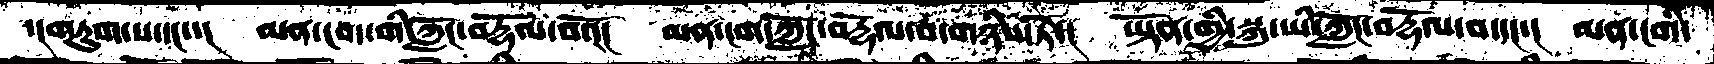་།གཏུག་པ་དང་་།  མན་ངག་གི་ཀློང་བརྡོལ་བའོ།  མན་ངག་ཀློང་བརྡོལ་བ་གཉིས་ཏེ་།  ཡྟོན་གྱི་སྐུ་ཡི་ཀློང་བརྡོལ་བ་དང་།  མན་ངགི་
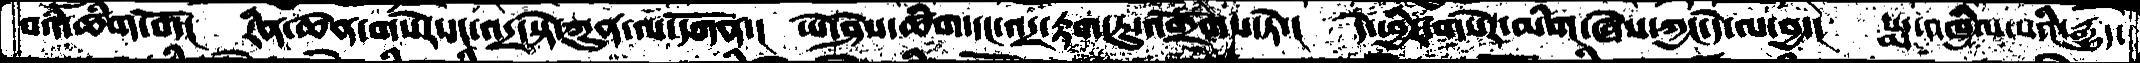བའི་ཚིག་གོ།  རིན་ཆེན་གསེར་དང་འདྲ་སྟེ་ཀུན་ལ་དཀོན་།  ཡེ་ཤེས་ཚིག་དང་འདྲ་རྟག་ཏུ་འགྲོགས་ཏེ་།  དེ་ཕྱིར་གསེར་མིག་ཞེས་ཀྱང་དེ་ལ་བྱ་།  པདྨ་འཁྱིལ་བའི་རྒྱུད་
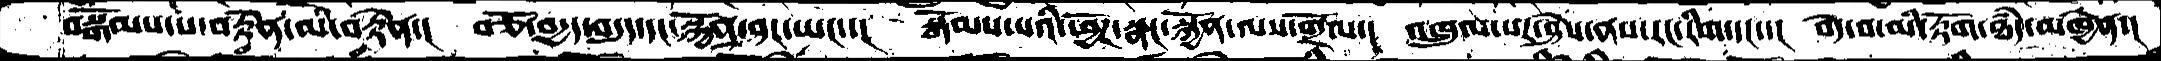བསྒོམས་པ་བརྟེན་མི་བརྟེན་།  བཅོ་བདྱད་བདུད་དང་སྐྱོན་ཤར་ཡང་་།  སྒོམས་པའི་ཕྱོཌ་སྣང་སྐྱོན་ལས་གྲོལ་།  འཁྲུལ་པར་ཤེས་ནས་རང་རིག་དང་་།  བདེ་བ་མི་རྟོག་ཐཾད་མཁྱེན་།
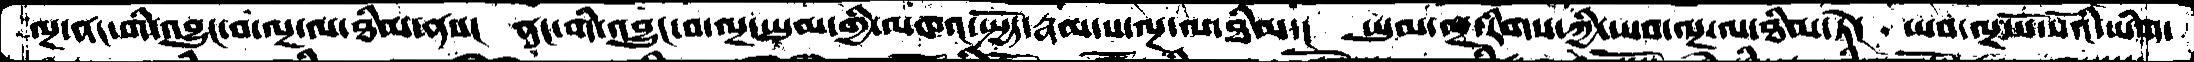ལྔ་ནང་གི་འབྱུང་བ་ལྔ་ལ་ཐིམ་ནས།  ནང་གི་འབྱུང་བ་ལྔ་ཡུམ་གྱི་མཁའ་སྤྱོད་རྣམ་པ་ལྔ་ལ་ཐིམ་།  ཡུམ་ལྔ་རིགས་ཀྱི་ཡབ་ལྔ་ལ་ཐིམ་ཏེ།  ཡབ་ལྔ་སོ་སོའི་ཡིག་
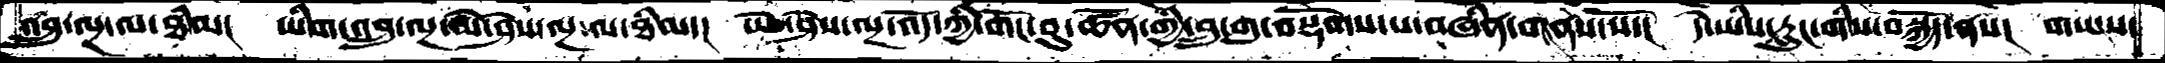འབྲུ་ལྔ་ལ་ཐིམ།  ཡིག་འབྲུ་ལྔ་ཡེ་ཤེས་ལྔ་ལ་ཐིམ་།  ཡེ་ཤེས་ལྔ་འོད་ཀྱི་གོང་བུ་ཚོན་གྱི་བྲུ་གུ་བསྡོགས་པ་བཞིན་གནས་སོ་།  དེ་ཡིས་རླུང་གིས་བསྐྱོད་ནས།  གཡས་
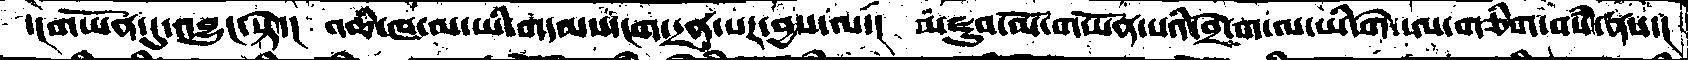་།གཡོན་དུ་འབྱུང་སྟེ་།  འཆི་ཁ་མ་ཡི་གདམས་ངག་དྲན་པར་བྱས་ལ་།  མཛུབ་མོ་གཡོན་པའི་བྲེ་ག་ལ་ཡི་གེ་ཨ་གཅིག་བསཾ་ནས་།
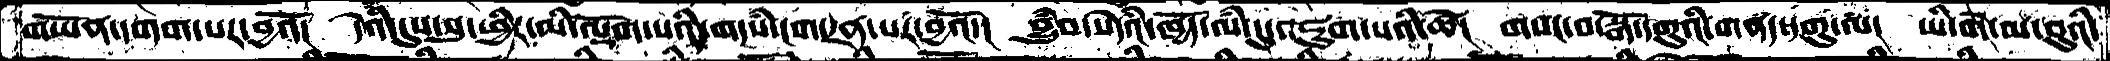གཡོན་དགགས་པར་བྱའོ།  དེའི་དུས་སུ་ཕྱིར་མི་ལྡོག་པའི་གདཾས་ངག་དྲན་པར་བྱའོ་།  བྱུཾབ་སེཾདའ་ཁྱོད་ལཾ་དུ་འཇུག་པའི་ཚེ།  གསང་བ་སྒོ་དགུའི་གནད་དགུ་ལ།  ཡི་གེ་མ་བུའི་
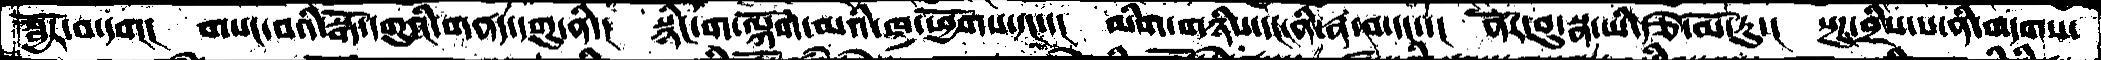སྦྱོར་བ་དག།  གསང་བའི་སྒོ་དགུའི་གནད་དགུ་ནི་།  སྙིང་ག་ལྐོག་མའི་ཁ་ཕྱོགས་དང་་།  མིག་གཉིས་དང་མི་རྣ་བ་དང་་།  ནོར་བུ་སྣ་ཡི་རྩེ་མོ་རུ་།།  སྔཌ་བྲིས་པ་ནི་གདགས་
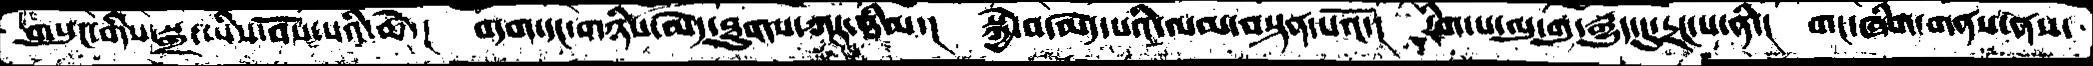གསུང་གིས་སྒྲ་ཡིས་བོས་པའི་ཚོཌ།  བདག་དང་གཉིས་མེད་ཐུགས་ཀར་ཐིམ་།  སྐྱེ་བ་མེད་པའི་ལམ་བསྟན་པའོ་།  རིག་པ་ལུ་གུ་རྒྱུད་དུ་དྲང་པ་ནི་།  གང་ཞིག་གནས་ནས་
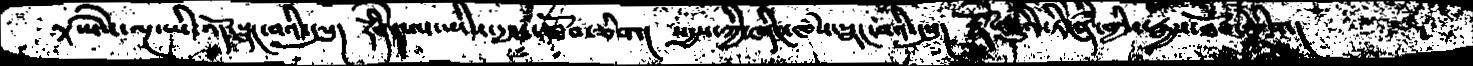ལྟ་ཡཻས་ལྔ་ཡི་འོད་སྣང་བའི་དུསུ། རིནོེ་ཨ་ཡིས་དྱས་ཐོབ་ཅིག།  སདྱས་ཀྱི་ཞིང་ཁཾས་སྣང་བའི་དུསུ།  རྡོཻ་བཅུའི་ཏིངེིན་གྱིས་རྒྱས་ཐོབ་ཅིག།
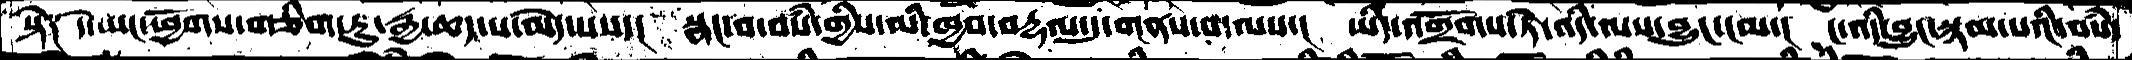སྟེ༑  དེ་ཡང་ཕྱོགས་གཅིག་ཏུ་རྒྱ་ཆད་པ་མེད་པས་།  སྣང་བ་བསཾ་གྱིས་མི་ཁྱབ་བརྡལ་དུ་གནས་བ་ལས་།  ཡིད་འགྲོགས་ཏེ་འདི་ལས་བྱུང་ངམ་།  ང་འདི་བྱུང་སྙམ་པའི་བསཾ་
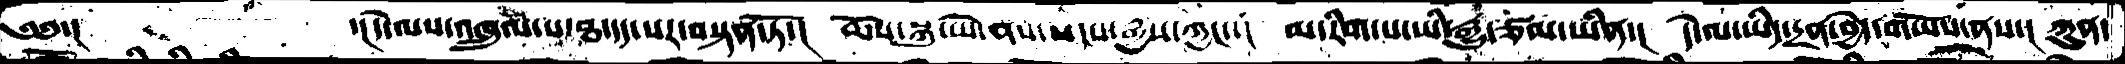༄༅་།           ་།དེ་ལས་འཁྲུལ་པ་ཐ་དད་པར་བསྟན་ཏོ་།  ཆོས་སྐུ་ཡེ་ནས་སངས་རྒྱས་ཀྱང་་།  མ་རིག་པ་ཡི་རྒྱུ་ཙམ་ཡིན་།  དེ་ལ་ཡིད་དྲན་བྱེད་གཡོས་ནས་།  ཀུན་
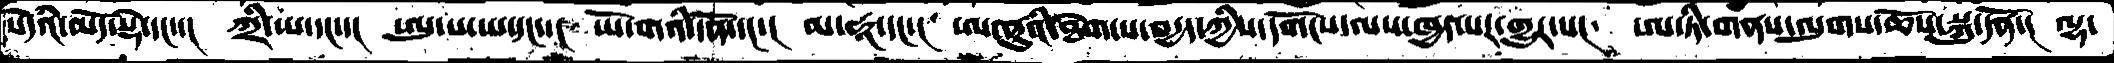སེདཾའ་མདོ་སྡེ་དང་་།  ཀྲི་ཡ་དང་་།  ཨུ་པ་ཡ་དང་་།  ཡོ་གའི་དོན་དང་།  མ་ཧཱ་དང་།  ཨ་ནུའི་ཐེག་པ་བདྱད་ཀྱིས་དགོངས་ལས་ཁྱད་པར་གྱུར་པ།  ཨ་ཏི་གནས་ལུགས་ཆོས་སྐུ་དོན་།  ལྷ་
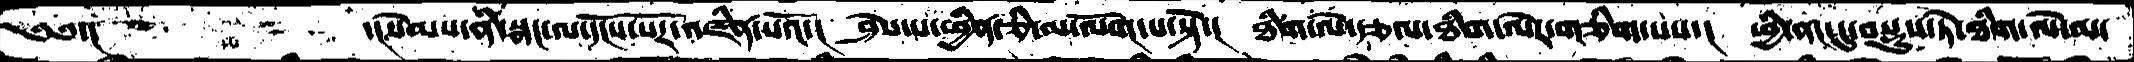༄༅་།    ་།སེམས་ནི་སྣང་ལ་དངོས་པོར་འཛིན་པའོ་།  ཤེས་པ་ཕྱིན་ཅི་མ་ལོག་པ་སྟེ་།  ཐིག་ལེ་རྩལ་ཐིག་ལེར་གཅིག་པས་།  ཕྱི་ནང་དུ་བསྡུས་ཏེ་ཐིག་ལེ་མ་
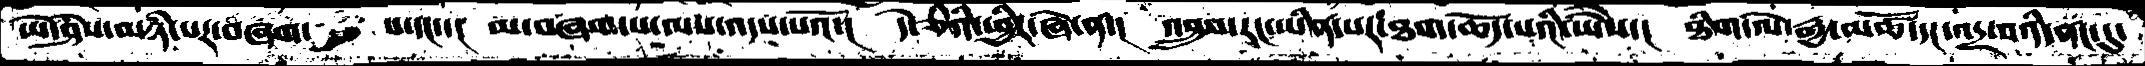ཡེ་ཤེས་མཉཾ་པར་བཞག་    པ་དང་་།  མ་བཞག་པ་ལས་འདས་པའོ་།  དེ་ཅིའི་ཕྱིར་ཞེ་ན་།  འབྲུས་རང་ཡིན་པར་ཐག་ཆོད་པའི་ཡཻས་།  ཐིག་ལེ་རྒྱ་མཚོ་དང་འདྲ་བའི་ནང་དུ་
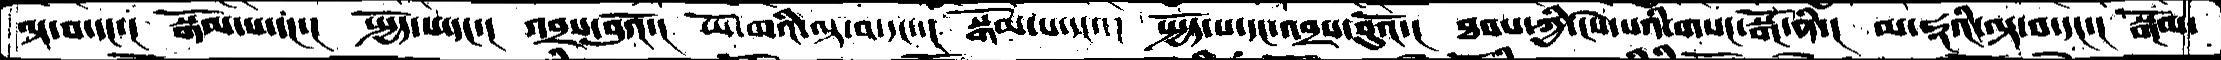ལྟ་བ་དང་།  སྒོམ་པ་དང་།  སྤྱོད་པ་དང་། འབྲས་བུའོ་།  ཡོ་གའི་ལྟ་བ་དང་་། སྒོམ་པ་དང་་།  སྤྱོད་པ་དང་འབྲས་བུའོ་།  ཐབས་ཀྱི་ངེས་པའི་གསང་སྒོ་ནི་།  མ་ཧཱའི་ལྟ་བ་དང་། སྒོམ་
